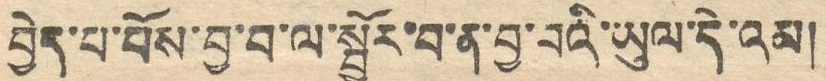བྱེད་པ་པོས་བྱ་བ་ལ་སྦྱོར་བ་ན་བྱ་བའི་ཡུལ་དེ་འམ།
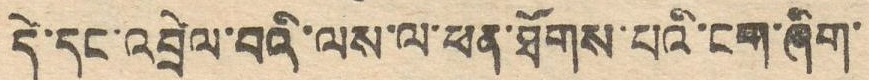དེ་དང་འབྲེལ་བའི་ལས་ལ་ཕན་ཐོགས་པའི་ངག་ཞིག་
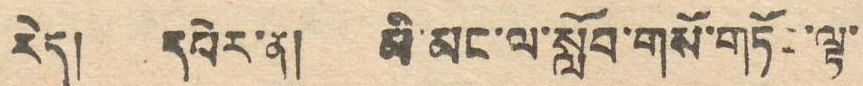རེད། དཔེར་ན། མི་མང་ལ་སློབ་གསོ་གཏོང་ལྟ་་
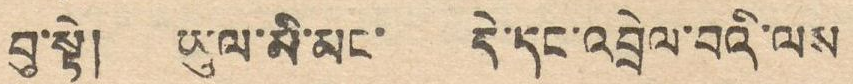བུ་སྟེ། ཡུལ་མི་མང་ དེ་དང་འབྲེལ་བའི་ལས
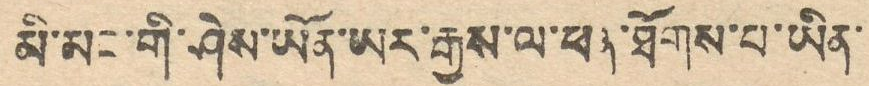མི་མང་གི་ཤེས་ཡོན་ཡར་རྒྱས་ལ་ཕན་ཐོགས་པ་ཡིན་
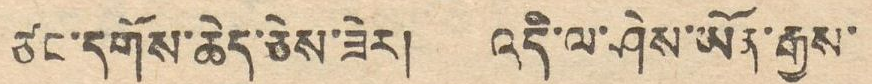ཙང་དགོས་ཆེད་ཅེས་ཟེར། འདི་ལ་ཤེས་ཡོན་རྒྱས་
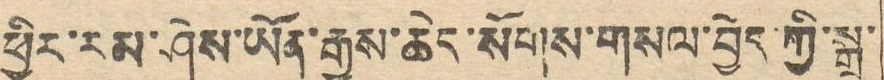ཕྱིར་རམ་ཤེས་ཡོན་རྒྱས་ཆེད་སོགས་གསལ་བྱེད་ཀྱི་སྒྲ་
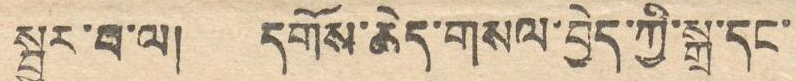སྦྱར་བ་ལ། དགོས་ཆེད་གསལ་བྱེད་ཀྱི་སྒྲ་དང་
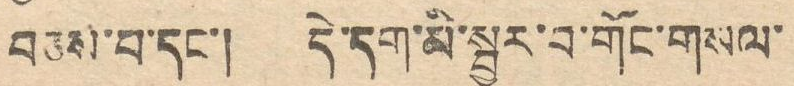བཅས་བ་དང་། དེ་དག་མི་སྦྱར་བ་གོང་གསལ་
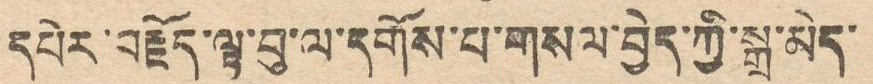དཔེར་བརྗོད་ལྟ་བུ་ལ་དགོས་པ་གསལ་བྱེད་ཀྱི་སྒྲ་མེད་
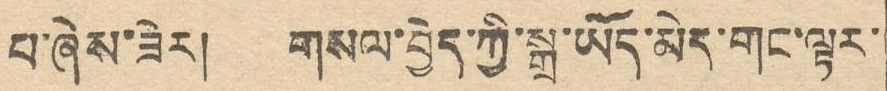པ་ཞེས་ཟེར། གསལ་བྱེད་ཀྱི་སྒྲ་ཡོད་མེད་གང་ལྟར་
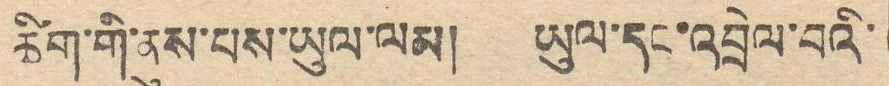ཚིག་གི་ནུས་པས་ཡུལ་ལམ། ཡུལ་དང་འབྲེལ་བའི་
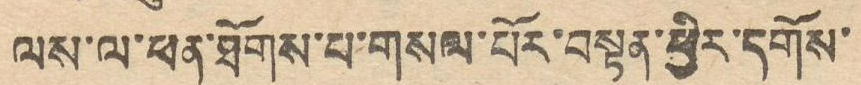ལས་ལ་ཕན་ཐོགས་པ་གསལ་པོར་བསྟན་ཕྱིར་དགོས་
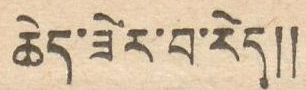ཆེད་ཟེར་པ་རེད།།
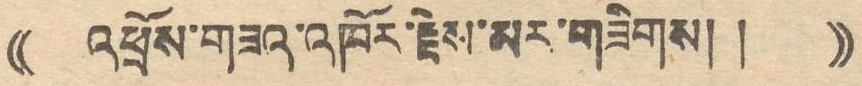(( འཕྲོས་གཟའ་འཁོར་རྗེས་མར་གཟིགས། ། ))
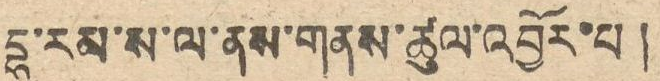དྷ་རམ་ས་ལ་ནས་གནས་ཚུལ་འབྱོར་པ།
